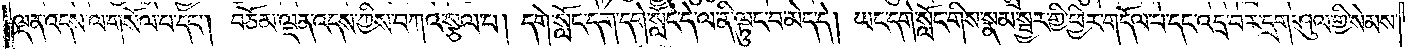ལྡན་འདས་ལ་གསོལ་པ་དང༌། བཅོམ་ལྡན་འདས་ཀྱིས་བཀའ་སྩལ་པ། དགེ་སློང་དག་དགེ་སློང་དེ་ལ་ནི་ལྟུང་བ་མེད་དེ། ཡང་དགེ་སློང་གིས་སྣམ་སྦྱར་གྱི་ཕྱིར་གདོལ་བ་དང་འདྲ་བར་དྲག་ཤུལ་གྱི་སེམས་
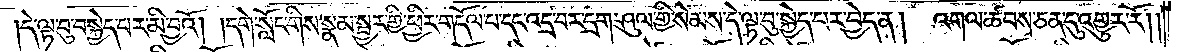དེ་ལྟ་བུ་བསྐྱེད་པར་མི་བྱའོ། །དགེ་སློང་གིས་སྣམ་སྦྱར་གྱི་ཕྱིར་གདོལ་པ་དང་འདྲ་བར་དྲག་ཤུལ་གྱི་སེམས་དེ་ལྟ་བུ་སྐྱེད་པར་བྱེད་ན།   འགལ་ཚབས་ཅན་དུ་འགྱུར་རོ། །
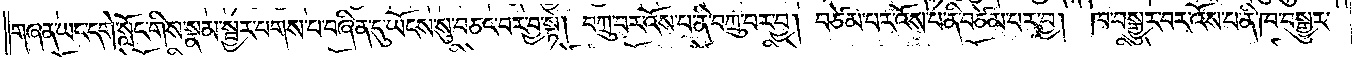གཞན་ཡང་དགེ་སློང་གིས་སྣམ་སྦྱར་པགས་པ་བཞིན་དུ་ཡོངས་སུ་བཅང་བར་བྱ་སྟེ། བཀྲུ་བར་འོས་པ་ནི་བཀྲུ་བར་བྱ། བཙེམ་པར་འོས་པ་ནི་བཙེམ་པར་བྱ། ཁ་བསྒྱུར་བར་འོས་པ་ནི་ཁ་བསྒྱུར་
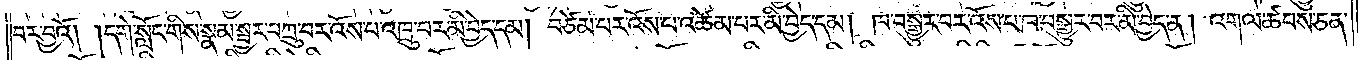བར་བྱའོ། །དགེ་སློང་གིས་སྣམ་སྦྱར་བཀྲུ་བར་འོས་པ་འཁྲུ་བར་མི་བྱེད་དམ། བཙེམ་པར་འོས་པ་འཚེམ་པར་མི་བྱེད་དམ། ཁ་བསྒྱུར་བར་འོས་པ་ཁ་བསྒྱུར་བར་མི་བྱེད་ན། འགལ་ཚབས་ཅན་
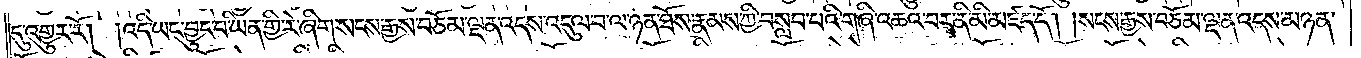དུ་འགྱུར་རོ། །འདི་ཡང་བྱུང་བ་ཡིན་གྱི་རེ་ཞིག་སངས་རྒྱས་བཅོམ་ལྡན་འདས་འདུལ་བ་ལ་ཉན་ཐོས་རྣམས་ཀྱི་བསླབ་པའི་གཞི་འཆའ་བར་ནི་མི་མཛད་དོ། །སངས་རྒྱས་བཅོམ་ལྡན་འདས་མཉན་
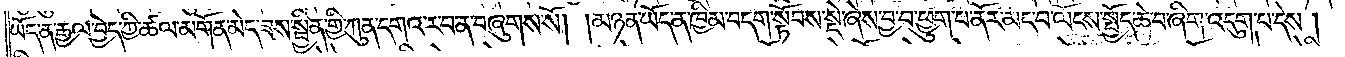ཡོད་ན་རྒྱལ་བྱེད་ཀྱི་ཚལ་མགོན་མེད་ཟས་སྦྱིན་གྱི་ཀུན་དགའ་ར་བ་ན་བཞུགས་སོ། །མཉན་ཡོད་ན་ཁྱིམ་བདག་སྟོབས་སྡེ་ཞེས་བྱ་བ་ཕྱུག་པ་ནོར་མང་བ་ལོངས་སྤྱོད་ཆེ་བ་ཞིག་འདུག་པ་དེས།
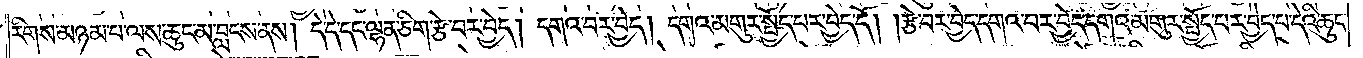རིགས་མཉམ་པ་ལས་ཆུང་མ་བླངས་ནས། དེ་དེ་དང་ལྷན་ཅིག་རྩེ་བར་བྱེད། དགའ་བར་བྱེད། དགའ་མགུར་སྤྱོད་པར་བྱེད་དོ། །རྩེ་བར་བྱེད་དགའ་བར་བྱེད་དགའ་མགུར་སྤྱོད་པར་བྱེད་པ་དེའི་ཆུང་
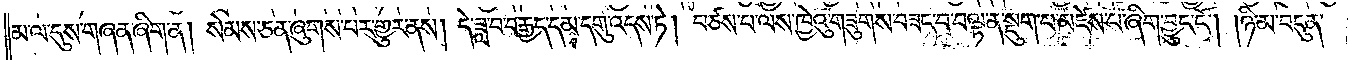མ་ལ་དུས་གཞན་ཞིག་ན། སེམས་ཅན་ཞུགས་པར་གྱུར་ནས། དེ་ཟླ་བ་བརྒྱད་དམ་དགུ་འདས་ཏེ། བཙས་པ་ལས་ཁྱེའུ་གཟུགས་བཟང་བ་བལྟ་ན་སྡུག་པ་མཛེས་པ་ཞིག་བྱུང་ངོ༌། །ཉི་མ་བདུན་
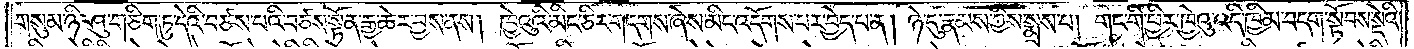གསུམ་ཉི་ཤུ་གཅིག་ཏུ་དེའི་བཙས་པའི་བཙས་སྟོན་རྒྱ་ཆེར་བྱས་ནས། ཁྱེའུའི་མིང་ཅིར་གདགས་ཞེས་མིང་འདོགས་པར་བྱེད་པ་ན། ཉེ་དུ་རྣམས་ཀྱིས་སྨྲས་པ། གང་གི་ཕྱིར་ཁྱེའུ་འདི་ཁྱིམ་བདག་སྟོབས་སྡེའི་
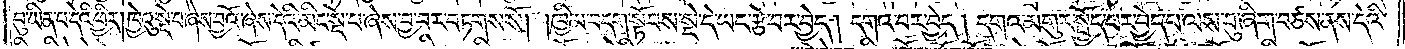བུ་ཡིན་པ་དེའི་ཕྱིར། ཁྱེའུ་སྡེ་པ་ཞེས་བྱའོ་ཞེས་དེའི་མིང་སྡེ་པ་ཞེས་བྱ་བར་བཏགས་སོ། །ཁྱིམ་བདག་སྟོབས་སྡེ་དེ་ཡང་རྩེ་བར་བྱེད། དགའ་བར་བྱེད། དགའ་མགུར་སྤྱོད་པར་བྱེད་པ་ལས་བུ་ཞིག་བཙས་ནས་དེའི་
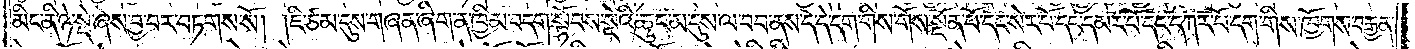མིང་ནི་ཉེ་སྡེ་ཞེས་བྱ་བར་བཏགས་སོ། །ཇི་ཙམ་དུས་གཞན་ཞིག་ན་ཁྱིམ་བདག་སྟོབས་སྡེའི་ཆུང་མ་དུས་ལ་བབ་ནས་དེ་དེ་དག་གིས་གོས་སྔོན་པོ་དང་སེར་པོ་དང་དམར་པོ་དང་དཀར་པོ་དག་གིས་ཁྱོགས་བརྒྱན་
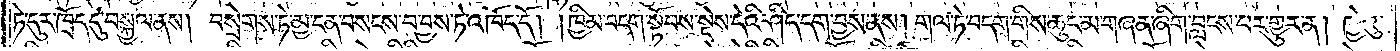ཏེ་དུར་ཁྲོད་དུ་བསྐྱལ་ནས། བསྲེགས་ཏེ་མྱ་ངན་བསངས་བ་བྱས་ཏེ་འཁོད་དོ། །ཁྱིམ་བདག་སྟོབས་སྡེས་དེའི་ཤིད་དག་བྱས་ནས། གལ་ཏེ་བདག་གིས་ཆུང་མ་གཞན་ཞིག་བླངས་པར་གྱུར་ན། ཁྱེའུ་
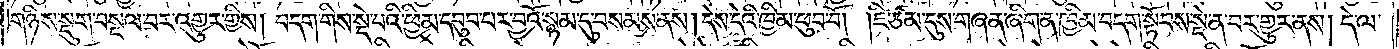གཉིས་སྡུག་བསྔལ་བར་འགྱུར་གྱིས། བདག་གིས་སྡེ་པའི་ཕྱི་མ་དབུབ་པར་བྱའོ་སྙམ་དུ་བསམས་ནས། དེས་དེའི་ཁྱིམ་ཕུབ་བོ། །ཇི་ཙམ་དུས་གཞན་ཞིག་ན་ཁྱིམ་བདག་སྟོབས་སྡེ་ན་བར་གྱུར་ནས། དེ་ལ་
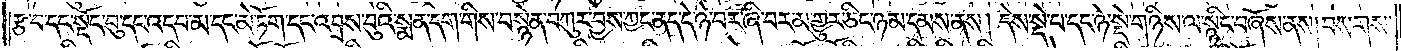རྩ་བ་དང་སྡོང་བུ་དང་འདབ་མ་དང་མེ་ཏོག་དང་འབྲས་བུའི་སྨན་དག་གིས་བསྙེན་བཀུར་བྱས་ཀྱང་ནད་དེ་ཉེ་བར་ཞི་བར་མ་གྱུར་ཅིང་ཉམ་དམས་ནས། དེས་སྡེ་པ་དང་ཉེ་སྡེ་གཉིས་ལ་སྙིང་བཞོས་ནས། བསགས་
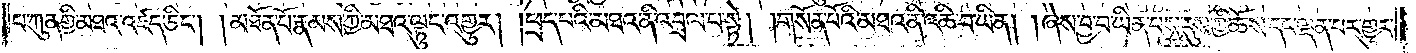པ་ཀུན་གྱི་མཐའ་འཛད་ཅིང༌། །མཐོན་པོ་རྣམས་ཀྱི་མཐའ་ལྟུང་འགྱུར། །ཕྲད་པའི་མཐའ་ནི་འབྲལ་པ་སྟེ། །གསོན་པོའི་མཐའ་ནི་འཆི་བ་ཡིན། །ཞེས་བྱ་བ་ཡིན་པས་དུས་ཀྱི་ཆོས་དང་ལྡན་པར་གྱུར་
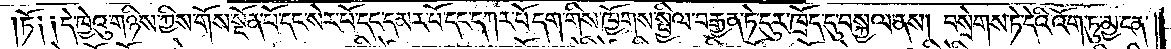ཏོ༑ ༑དེ་ཁྱེའུ་གཉིས་ཀྱིས་གོས་སྔོན་པོ་དང་སེར་པོ་དང་དམར་པོ་དང་དཀར་པོ་དག་གིས་ཁྱོགས་སྤྱིལ་བརྒྱན་ཏེ་དུར་ཁྲོད་དུ་བསྐྱལ་ནས། བསྲེགས་ཏེ་དེའི་འོག་ཏུ་མྱ་ངན་
